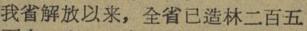我省解放以来，全省已造林二百五
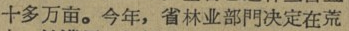十多万亩。今年，省林业部門决定在荒
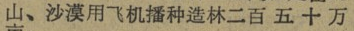山、沙漠用飞机播种造林二百 五 十 万
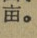亩。
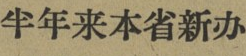半年来本省新办
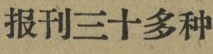报刊三十多种
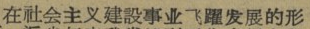在社会主义建設事业飞躍发展的形
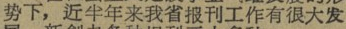势下，近半年来我省报刊工作有很大发
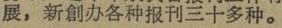展，新創办各种报刊三十多种。
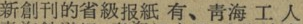新創刊的省級报紙 有、靑海 工 人
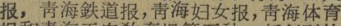报，靑海鉄道报，靑海妇女报，靑海体育
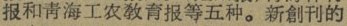报和靑海工农敎育报等五种。新創刊的
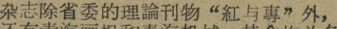杂志除省委的理論刊物“紅与專”外，
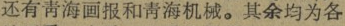还有靑海画报和靑海机械。其余均为各
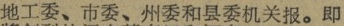地工委、市委、州委和县委机关报。即
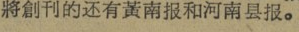將創刊的还有黄南报和河南县报。
